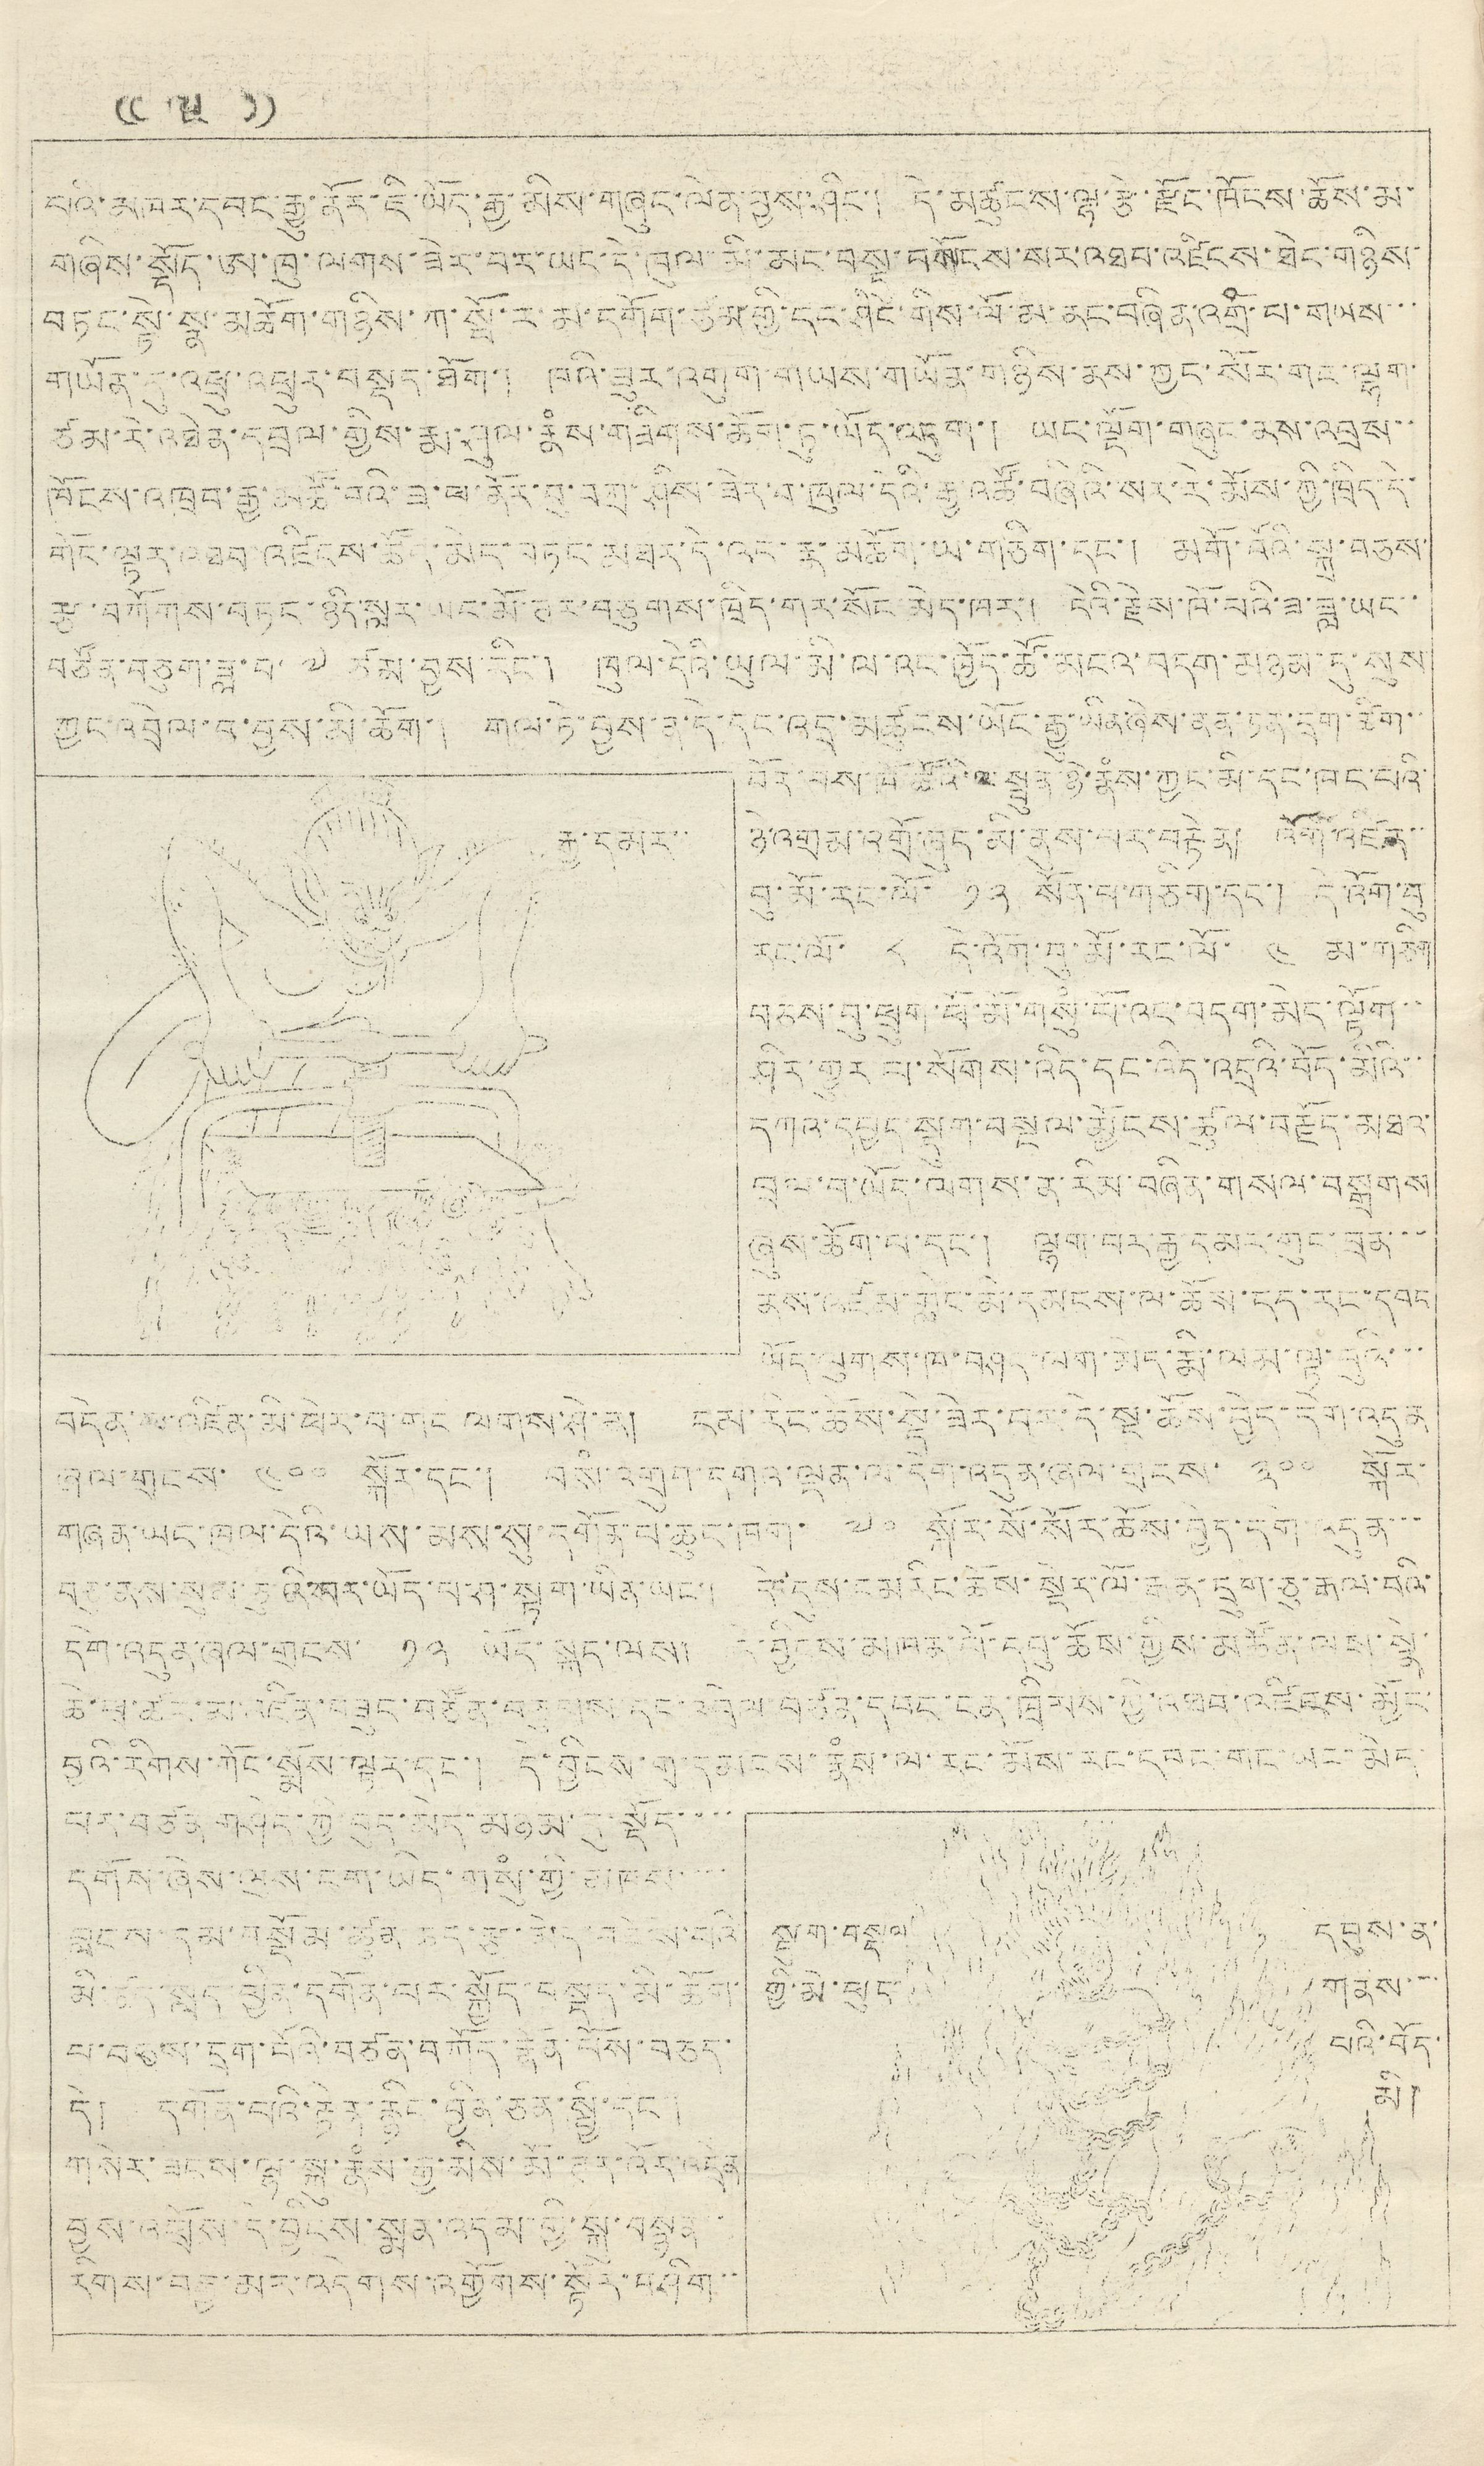(( ལྔ་ ))
པའི་མཁར་དབང་རྒྱུ་ནོར་ཇི་ཡོད་རྒྱ་མིས་གཞུང་ལེན་བྱས་ཤིང་། དེ་མཚུངས་ལྷ་རྩེ་རྫོང་ཁོངས་ཆོས་མ་
གཞིས་སྡོད་ཨ་ཁུ་ལགས་ཟེར་བར་ཡང་དེ་ཁུལ་གི་མང་བསྡུ་བགོངས་སར་འཐབ་འཛིངས་ཐེང་གཉིས་
བཏང་སྟེ་སྣ་མཆོག་གཉིས་ཀ་སྦོ་ར་མ་དགོག་ཙམ་གྱི་དང་ཤིང་གིས་ལོ་མ་ནང་བཞིན་འགྲོ་པ་གཡས་་་
གཡོན་དུ་འཕྲུ་འཕྲུར་བསྡད་ཐོག་། ཁའི་ཟུར་འགུག་གཡས་གཡོན་གཉིས་ནས་ཀྱང་སོར་གང་ལྷག་
ཙམ་རེ་འཐེན་དབྲལ་གྱིས་རྨ་ཤུལ་རྣཾས་གཟིགས་ཆོག་ཏུ་ལོད་འདུག་། ཡང་ལྡོག་གཞུང་ནས་འབྲས་་
ཁོངས་འཁྲབ་རྒྱ་མཚོ་བའི་ཟ་ཕ་ནོར་བ་བཀྲ་ཤིས་ཟེར་བ་ཁུལ་དེའི་རྒྱ་འཚོ་བཞིའི་སར་རི་མོས་ཀྱི་ཁྲིད་དེ་
གོང་ལྟར་འཐབ་འཛིངས་ཚོད་མེད་བཏང་མཐར་དེ་འདྲ་རྣ་མཆོག་ཡ་གཅིག་དང་། མགོ་བོའི་སྐྲ་བཅས་
རྩ་བཀོགས་བཏང་ཉིད་སླར་ཡང་མི་ཊར་བཅུགས་ཁྲིད་གར་སོང་མེད་ཁར་། དེའི་རྗེས་ཁོ་བའི་ཟླ་ཡང་་
བཙོན་བཅུག་ཟླ་བ་ ༧ ཙམ་བྱས་རིང་། ཁུལ་དེའི་ཡུལ་མི་ལ་འང་ཁྱོད་ཚོ་མངའ་བདག་བཉམ་དུ་སུས
ཀྱང་འབྲེལ་བ་བྱས་མི་ཆོག་། གལ་ཏེ་བྱས་ན་དེ་དང་འདྲ་མཚུངས་ཡོང་རྒྱུ་ཡིན་ཞེས་ནན་ཏན་དྲན་ཚིག་་
བོར་བས་ཁོ་ཚོའི་སྤུན་ཉེ་རྣཾས་ཀྱང་མི་དང་ཁང་པའི་
ཉེ་འགྲམ་འགྲོ་ཞུད་མི་ནུས་པར་བརྟེན། འོག་འཛིན་་
བུ་མོ་རང་ལོ་ ༡༢ སོན་པ་གཅིག་དང་། དེ་འོག་བུ
རང་ལོ་ ༨ དེ་འོག་དུ་མོ་རང་ལོ་ ༤ མ་གཅིག
བཅས་བུ་ཕྲུག་ཕོ་མོ་གསུཾ་པོ་འང་བདག་མེད་ལྟོག་་
ཤིར་གྱུར་པ་སོགས་འདི་དང་འདི་འདྲའི་བོད་མིའི་་
དཀའ་དཔྱད་སྡུག་བསྔལ་མྱོངས་ཚུལ་བརྗོད་མཐའ་
བྲལ་བ་ཡོད་ལགས་ན་རིམ་བཞིན་གསལ་བསྒྲགས
ཞུས་ཆོག་པ་དང་། ལྷག་པར་རྒྱ་དམར་གུང་བྲན་་
ནས་འཛམ་གླིང་མི་དམངས་ལ་ཆོས་དང་རང་དབང
ཡོད་ལུགས་ཁ་བཤད་ལག་མེད་རྨི་ལམ་ལྟ་བུའི་་་
བདེན་ཆ་འཛིན་མི་ཕེར་བ་གང་ལགས་ཤེ་ན། ངམ་རིང་ཆོས་སྡེ་ཟེར་བར་དེ་སྔ་ཆོས་བྱེད་དགེ་འདུན
ཞལ་གྲངས་ ༤༠༠ སྐོར་དང་། བསཾ་འགྲུབ་དགའ་ལྡན་ལ་དགེ་འདུན་ཞལ་གྲངས་ ༣༠༠ སྐོར་
གཞན་ཡང་ཁུལ་དེའི་ཡས་མས་སུ་དགོན་པ་ཆུང་ཁག་ ༧༠ སྐོར་སོ་སོར་ཆོས་བྱེད་དགེ་འདུན་་་
བཅུ་ནས་སུམ་བཅུའི་བར་ཡོད་པ་ཤ་སྟག་ཡིན་ཡང་། དེ་དུས་ངམ་རིང་ཆོས་སྡེར་ལོ་རྒན་དྲུག་ཅུ་རྒལ་བའི་
དགེ་འདུན་ཞལ་གྲངས་ ༡༢ ཡོད་སྐད་ལས། དེ་བྱིངས་མཁན་པོ་དབུ་ཆོས་ཀྱིས་མཚོན་ལས་སྣེ་
ཆེ་ཕྲ་ཚང་མ་འཛིན་བཟུང་བཙོན་བཅུགས་དང་འབྲེལ་བཙན་དབང་ངན་ཁྲིམས་ཀྱི་འཐབ་འཛིངས་མྱོང་
བྱའི་རིགས་གོང་སྨོས་ལྟར་དང་། དེ་བྱིངས་གྲྭ་དམངས་རྣཾས་ལ་རང་མོས་རང་དབང་དང་ཡང་མེད་
པར་བཙན་གཤེད་ཀྱི་བུད་མེད་མཉམ་དུ་སྡོད་་་་
དགོས་ཞེས་ལུས་ངག་ཡིད་གསུཾ་གྱི་མཁས་་་་
བླངས་དམ་བསྡོམ་ཚུན་ཆད་རྩ་མེད་བཟོས་པའི་
མོ་ཚད་སླད་ཕྱིན་དགོན་པར་སྐྱོད་བསྡད་མི་ཆོག་
པ་བཅས་དྲག་པོའི་བཙན་བཀོད་རྣོན་པོས་བཅད་
དེ། དགོན་པའི་རྟེན་རྙིང་བྱིན་ཅན་སྦྱི་དང་།
གསེར་ཟངས་ལྷ་སྐུ་རྣཾས་རྒྱ་མིས་མོ་ཊར་འོར་འདྲེན
བྱས་ཕྲོས་དེ་བྱིངས་སྨན་འདམ་གྱི་སྐུ་བསྙན་་
རིགས་བརྒྱ་མར་འདེགས་འགྱོགས་སྟོར་བཤིག་་
རྒྱ་དམར་་
སྡུག་བསྔལ
གྱི་མེ་ཕུང་
དབུས་ན་
གནས་་་་
པའི་བོད་
མི།
